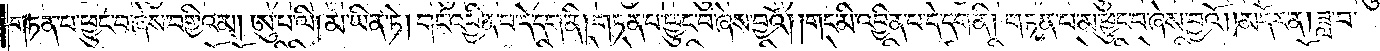གཏན་པ་ཕྱུང་བ་ཞེས་བགྱིའམ། ཨུ་པ་ལི། མ་ཡིན་ཏེ། གང་འབྱིན་པ་དེ་དག་ནི། གཏན་པ་ཕྱུང་བ་ཞེས་བྱའོ། །གང་མི་འབྱིན་པ་དེ་དག་ནི། གཏན་པ་མ་ཕྱུང་བ་ཞེས་བྱའོ། །མདོར་ན། ཟླ་བ་
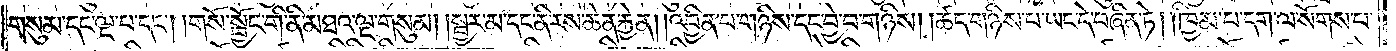གསུམ་དང་ལྔ་པ་དང༌། །གསོ་སྦྱོང་གི་ནི་མཐའ་ལྔ་གསུམ། །སྦྱར་མ་དང་ནི་རས་ཆེན་རྐྱེན། །འབྱིན་པ་གཉིས་དང་བྱེ་བ་གཉིས། །ཚད་གཉིས་པ་ཡང་དེ་བཞིན་ཏེ། །ཁྱིམ་པ་དག་ལ་སོགས་པ་
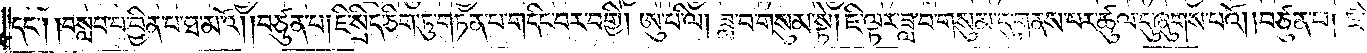དང༌། །བསླབ་པ་བྱིན་པ་ཐ་མ་འོ། །བཙུན་པ། ཇི་སྲིད་ཅིག་ཏུ་གཏན་པ་གདིང་བར་བགྱི། ཨུ་པ་ལི། ཟླ་བ་གསུམ་སྟེ། ཇི་ལྟར་ཟླ་བ་གསུམ་དུ་གནས་པར་ཚུལ་དུ་ཞུགས་པའོ། །བཙུན་པ། ཇི་
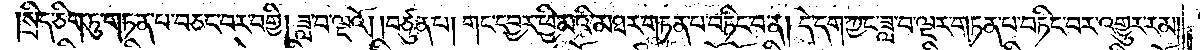སྲིད་ཅིག་ཏུ་གཏན་པ་བཅང་བར་བགྱི། ཟླ་བ་ལྔའོ། །བཙུན་པ། གང་དབྱར་ཕྱི་མའི་མཐར་གཏན་པ་བཏིང་བ་ན། དེ་དག་ཀྱང་ཟླ་བ་ལྔར་གཏན་པ་བཏིང་བར་འགྱུར་རམ།
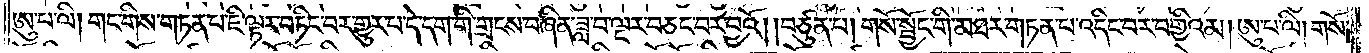ཨུ་པ་ལི། གང་གིས་གཏན་པ་ཇི་ལྟར་བཏིང་བར་གྱུར་པ་དེ་དག་གི་གྲངས་བཞིན་ཟླ་བ་ལྔར་བཅང་བར་བྱའོ། །བཙུན་པ། གསོ་སྦྱོང་གི་མཐར་གཏན་པ་འདིང་བར་བགྱིའམ། ཨུ་པ་ལི། གསོ་
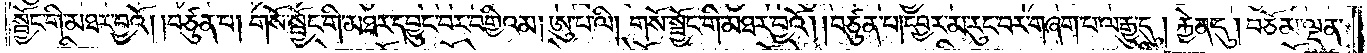སྦྱོང་གི་མཐར་བྱའོ། །བཙུན་པ། གསོ་སྦྱོང་གི་མཐར་དབྱུང་བར་བགྱིའམ། ཨུ་པ་ལི། གསོ་སྦྱོང་གི་མཐར་བྱའོ། །བཙུན་པ། དབྱར་མ་རུང་བར་གཞག་པ་ལ་རྒྱུ་དུ། རྐྱེན་དུ། བཅོམ་ལྡན་
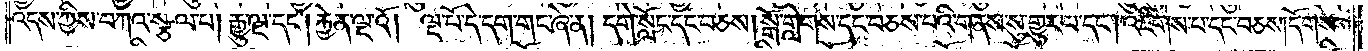འདས་ཀྱིས་བཀའ་སྩལ་པ། རྒྱུ་ལྔ་དང༌། རྐྱེན་ལྔའོ། །ལྔ་པོ་དེ་དག་གང་ཞེ་ན། དགེ་སློང་དང་བཅས། སྒོ་གླེགས་དང་བཅས་པའི་གནས་སུ་གྱུར་པ་དང༌། འཇིགས་པ་དང་བཅས། དོགས་
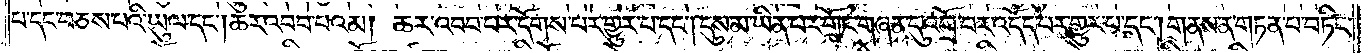པ་དང་བཅས་པའི་ཡུལ་དང༌། ཆར་འབབ་པའམ། ཆར་འབབ་པར་དོགས་པར་གྱུར་པ་དང༌། དུས་མ་ཡིན་པར་གྲོང་གཞན་དུ་འགྲོ་བར་འདོད་པར་གྱུར་པ་དང༌། གནས་ན་གཏན་པ་བཏིང་
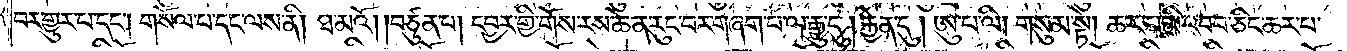བར་གྱུར་པ་དང༌། གསོལ་བ་དང་ལས་ནི། ཐ་མའོ། །བཙུན་པ། དབྱར་གྱི་གོས་རས་ཆེན་རུང་བར་གཞག་པ་ལ་རྒྱུ་དུ། རྐྱེན་དུ་ཨུ་པ་ལི། གསུམ་སྟེ། ཆར་པ་མི་འབབ་ཅིང་ཆར་པ་
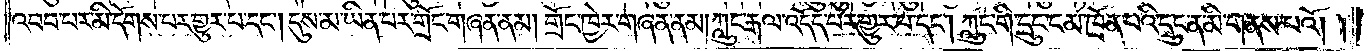འབབ་པར་མི་དོགས་པར་གྱུར་པ་དང༌། དུས་མ་ཡིན་པར་གྲོང་གཞན་ནམ། གྲོང་ཁྱེར་གཞན་ནམ། ཀླུང་རྒལ་འདོད་པར་གྱུར་པ་དང༌། ཀླུང་གི་དྲུང་ངམ་ཁྲོན་པའི་དྲུང་ན་མི་གནས་པའོ། །
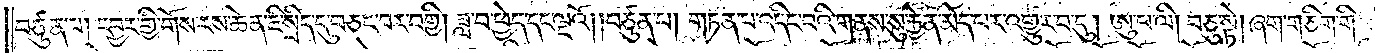བཙུན་པ། དབྱར་གྱི་གོས་རས་ཆེན་ཇི་སྲིད་དུ་བཅང་བར་བགྱི། ཟླ་བ་ཕྱེད་དང་ལྔའོ། །བཙུན་པ། གཏན་པ་འདིང་བའི་གནས་སུ་རྐྱེན་མེད་པར་འགྱུར་བ་དུ། ཨུ་པ་ལི། བཅུ་སྟེ། ཞག་གཅིག་གིས་
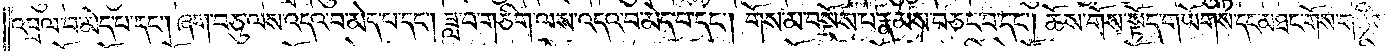འབྲལ་བ་མེད་པ་དང༌། ཞག་བཅུ་ལས་འདའ་བ་མེད་པ་དང༌། ཟླ་བ་གཅིག་ལས་འདའ་བ་མེད་པ་དང༌། གོས་མ་བསྔོས་པ་རྣམས་བཅང་བ་དང༌། ཆོས་གོས་སྟོད་གཡོགས་དང་མཐང་གོས་གཉིས་
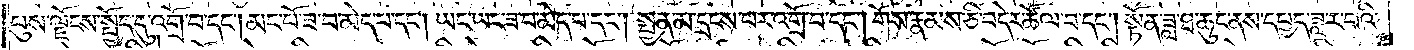པུས་ལྗོངས་སྤྱོད་དུ་འགྲོ་བ་དང༌། མང་པོ་ཟ་བ་མེད་པ་དང༌། ཡང་ཡང་ཟ་བ་མེད་པ་དང༌། སྤྱན་མ་དྲངས་པར་འགྲོ་བ་དང༌། གོས་རྣམས་ཅི་བདེར་ཚོལ་བ་དང༌། སྟོན་ཟླ་ཐ་ཆུང་ནས་དཔྱད་ཟླ་ར་བའི་
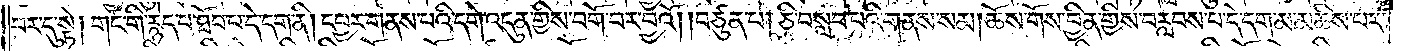བར་དུ་སྟེ། གང་གི་རྙེད་པ་ཐོབ་པ་དེ་དག་ནི། དབྱར་གནས་པའི་དགེ་འདུན་གྱིས་བགོ་བར་བྱའོ། །བཙུན་པ། ཅི་བསླབ་པའི་གནས་སམ། ཆོས་གོས་བྱིན་གྱིས་བརླབས་པ་དེ་དག་མ་མཆིས་པར་
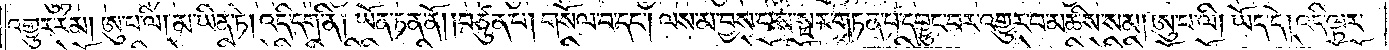འགྱུར་རམ། ཨུ་པ་ལི། མ་ཡིན་ཏེ། འདི་དག་ནི། ཡོན་ཏན་ནོ། །བཙུན་པ། གསོལ་བ་དང༌། ལས་མ་བྱས་པས་སྔར་གཏན་པ་དབྱུང་བར་འགྱུར་བ་མཆིས་སམ། ཨུ་པ་ལི། ཡོད་དེ། འདི་ལྟར་
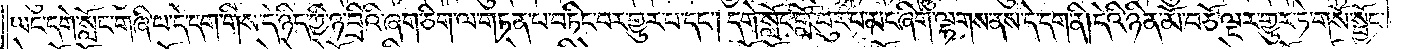ཡང་དགེ་སློང་གཞི་པ་དེ་དག་གིས་དེ་ཉིད་ཀྱི་ཉ་བྲིའི་ཞག་ཅིག་ལ་གཏན་པ་བཏིང་བར་གྱུར་པ་དང༌། དགེ་སློང་གློ་བུར་པ་མང་ཞིག་ལྷགས་ནས་དེ་དག་ནི། དེའི་ཉིན་མོ་བཅོ་ལྔར་གྱུར་ཏེ་གསོ་སྦྱོང་
